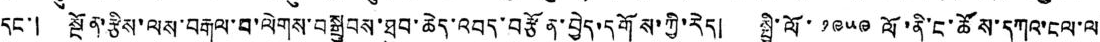དང་། སྔོན་རྩིས་ལས་བརྒལ་བ་ལེགས་བསྒྲུབས་ཐུབ་ཆེད་འབད་བརྩོན་བྱེད་དགོས་ཀྱི་རེད། སྤྱི་ལོ་ ༡༩༥༩ ལོ་ནི་ང་ཚོས་དཀའ་ངལ་ལ་
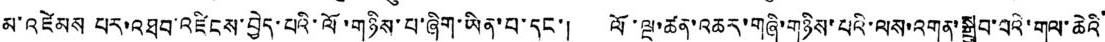མ་འཛེམས པར་འཐབ་འཛིངས་བྱེད་པའི་ལོ་གཉིས་པ་ཞིག་ཡིན་པ་དང་། ལོ་ལྔ་ཚན་འཆར་གཞི་གཉིས་པའི་ལས་འགན་སྒྲུབ་པའི་གལ་ཆེའི་
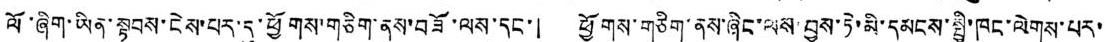ལོ་ཞིག་ཡིན་སྟབས་ངེས་པར་དུ་ཕྱོགས་གཅིག་ནས་བཟོ་ལས་དང་། ཕྱོགས་གཅིག་ནས་ཞིང་ལས་བྱས་ཏེ་མི་དམངས་སྤྱི་ཁང་ལེགས་པར་་
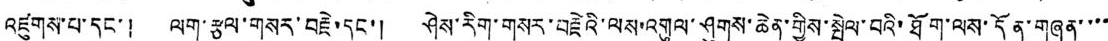འཛུགས་པ་དང་། ལག་རྩལ་གསར་བརྗེ་དང་། ཤེས་རིག་གསར་བརྗེའི་ལས་འགུལ་ཤུགས་ཆེན་གྱིས་སྤེལ་བའི་ཐོག་ལས་དོན་གཞན་་་་
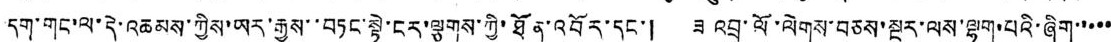དག་གང་ལ་དེ་འཆམས་ཀྱིས་ཡར་རྒྱས་་བཏང་སྟེ་ངར་ལྕགས་ཀྱི་ཐོན་འབོར་དང་། ཟ འབྲུ་ལོ་ལེགས་བཅས་སྔར་ལས་ལྷག་པའི་ཞིག་་་་་
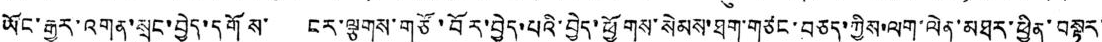ཡོང་རྒྱུར་འགན་སྲུང་བྱེད་དགོས་ ངར་ལྕགས་གཙོ་བོར་བྱེད་པའི་བྱེད་ཕྱོགས་སེམས་ཐག་གཙང་བཅད་ཀྱིས་ལག་ལེན་མཐར་ཕྱིན་བསྟར་
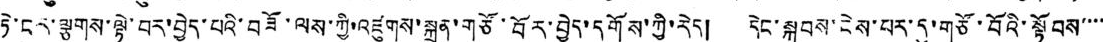ཏེ་ངར་ལྕགས་ལྟེ་བར་བྱེད་པའི་བཟོ་ལས་ཀྱི་འཛུགས་སྐྲུན་གཙོ་བོར་བྱེད་དགོས་ཀྱི་རེད། དེང་སྐབས་ངེས་པར་དུ་གཙོ་བོའི་སྟོབས་་་་
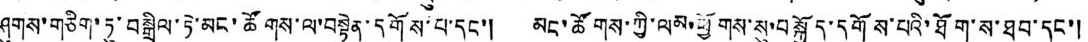ཤུགས་གཅིག་ཏུ་བསྒྲིལ་ཏེ་མང་ཚོགས་ལ་བསྟེན་དགོས་པ་དང་། མང་ཚོགས་ཀྱི་ལམ་ཕྱོགས་སུ་བསྐྱོད་དགོས་པའི་ཐོག་ས་ཐབ་དང་།
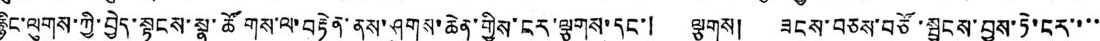རྙིང་ལུགས་ཀྱི་བྱེད་སྟངས་སྣ་ཚོགས་ལ་བརྟེན་ནས་ཤུགས་ཆེན་གྱིས་ངར་ལྕགས་དང་། ལྕགས། ཟངས་བཅས་བཙོ་སྦྱངས་བྱས་ཏེ་ངར་་་་
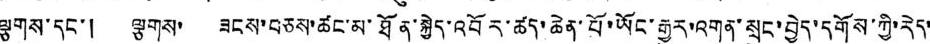ལྕགས་དང་། ལྕགས་ ཟངས་བཅས་ཚང་མ་ཐོན་སྐྱེད་འབོར་ཚད་ཆེན་པོ་ཡོང་རྒྱུར་འགན་སྲུང་བྱེད་དགོས་ཀྱི་རེད་
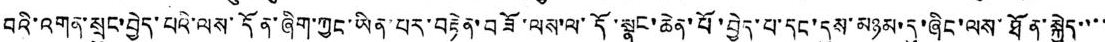བའི་འགན་སྲུང་བྱེད་པའི་ལས་དོན་ཞིག་ཀྱང་ཡིན་པར་བརྟེན་བཟོ་ལས་ལ་དོ་སྣང་ཆེན་པོ་བྱེད་པ་དང་དུས་མཉམ་དུ་ཞིང་ལས་ཐོན་སྐྱེད་་་་
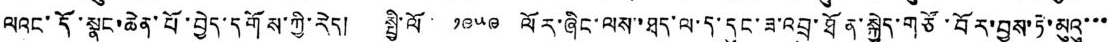ལའང་དོ་སྣང་ཆེན་པོ་བྱེད་དགོས་ཀྱི་རེད། སྤྱི་ལོ་ ༡༩༥༩ ལོར་ཞིང་ལས་ཐད་ལ་ད་དུང་ཟ་འབྲུ་ཐོན་སྐྱེད་གཙོ་བོར་བྱས་ཏེ་མུའུ་་་
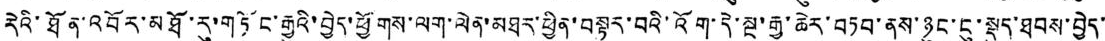རེའི་ཐོན་འབོར་མཐོ་རུ་གཏོང་རྒྱུའི་བྱེད་ཕྱོགས་ལག་ལེན་མཐར་ཕྱིན་བསྟར་བའི་འོག་དེ་སྔ་རྒྱ་ཆེར་བཏབ་ནས་ཉུང་ངུ་སྡུད་ཐབས་བྱེད་
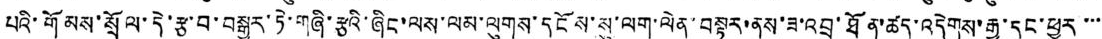པའི་གོམས་སྲོལ་དེ་རྩ་བ་བསྒྱུར་ཏེ་གཞི་རྩའི་ཞིང་ལས་ལམ་ལུགས་དངོས་སུ་ལག་ལེན་བསྟར་ནས་ཟ་འབྲུ་ཐོན་ཚད་འདེགས་རྒྱ་དུང་ཕྱུར་་་་
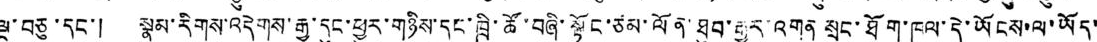ལྔ་བཅུ་དང་། སྣུམ་རིགས་འདེགས་རྒྱ་དུང་ཕྱུར་གཉིས་དང་ཁྲི་ཚོ་བཞི་སྟོང་ཙམ་ལོན་ཐུབ་རྒྱུར་འགན སྲུང་ཐོག་ཁུལ་དེ་ཡོངས་ལ་ཡོད་
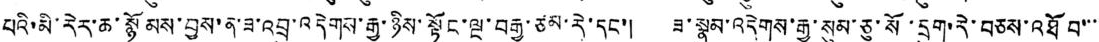པའི་མི་རེར་ཆ་སྙོམས་བྱས་ན་ཟ་འབྲུ་འདེགས་རྒྱ་ཉིས་སྟོང་ལྔ་བརྒྱ་ཙམ་རེ་དང་། ཟ་སྣུམ་འདེགས་རྒྱ་སུམ་ཅུ་སོ་དྲུག་རེ་བཅས་འཐོབ་་་་
